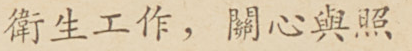衛生工作，關心與照
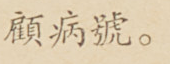顧病號。
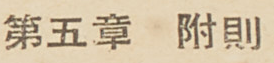第五章 附則
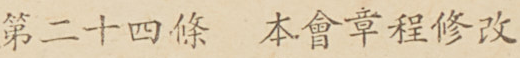第二十四條 本會章程修改
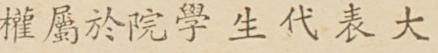權屬於院學生代表大
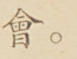會。
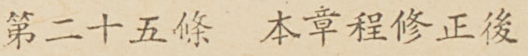第二十五條 本章程修正後
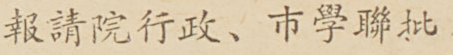報請院行政、市學聯批
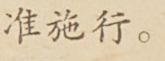准施行。
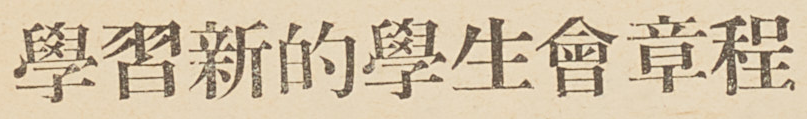學習新的學生會章程
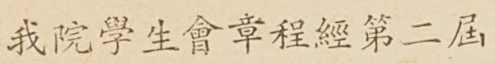我院學生章程經第二屆
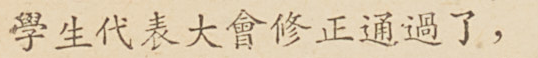學生代表大會修正通過了，
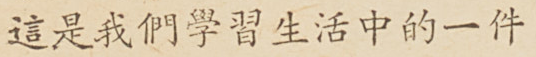這是我們學習生活中的一件
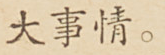大事情。
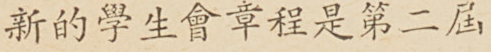新的學生會章程是第二屆
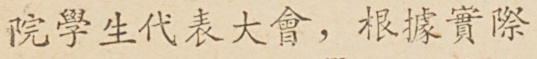院學生代表大會，根據實際
